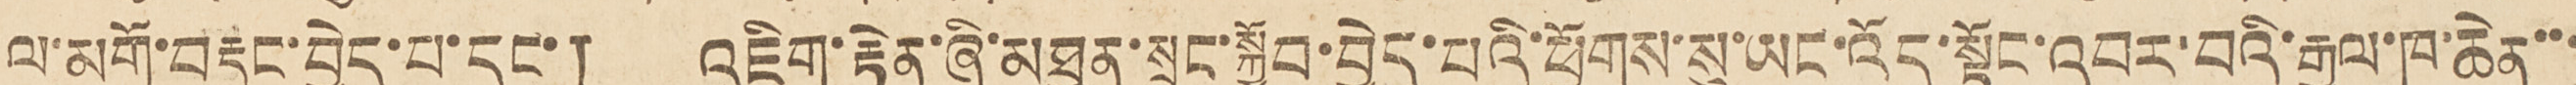ལ་མགོ་བརྡུང་བྱེད་པ་དང་། འཇིག་རྟེན་ཞི་མཐུན་སྲུང་སྐྱོབ་བྱེད་པའི་ཕྱོགས་སུ་ཡང་འོད་སྟོང་འབར་བའི་རྒྱལ་ཁ་ཆེན་་་
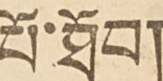པོ་ཐོབ།
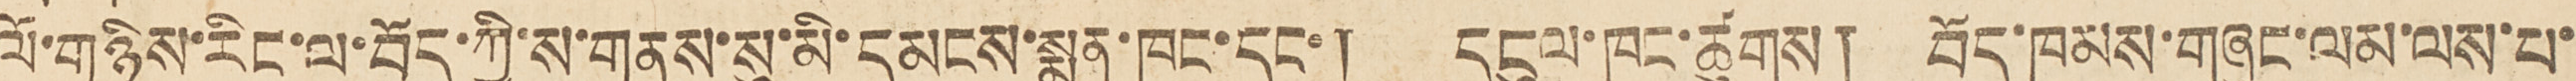ལོ་གཉིས་རིང་ལ་བོད་ཀྱི་ས་གནས་སུ་མི་དམངས་སྨན་ཁང་དང་། དངུལ་ཁང་ཚུགས། བོད་ཁམས་གཞུང་ལམ་ལས་པ་
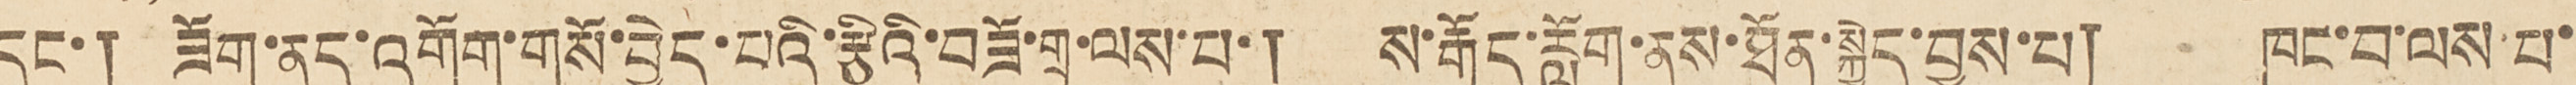དང་། ཟོག་ནད་འགོག་གསོ་བྱེད་པའི་རྩིའི་བཟོ་གྲྭ་ལས་པ་། ས་རྒོད་རློག་ནས་ཐོན་སྐྱེད་བྱས་པ། ཁང་བ་ལས་པ་
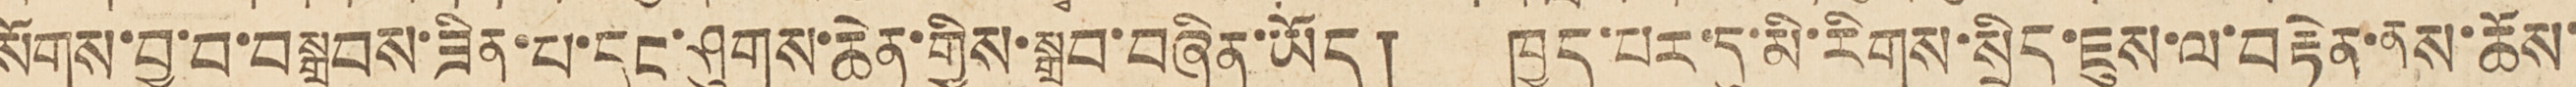སོགས་བྱ་བ་བསྒྲུབས་ཟིན་པ་དང་ཤུགས་ཆེན་གྱིས་སྒྲུབ་བཞིན་ཡོད། ཁྱད་པར་དུ་མི་རིགས་སྲིད་ཇུས་ལ་བརྟེན་ནས་ཆོས་
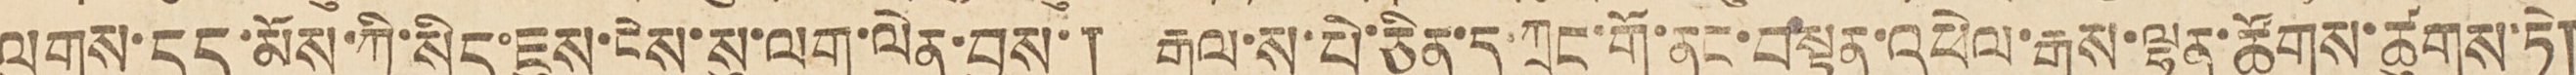ལུགས་དད་མོས་ཀྱི་སྲིད་ཇུས་ངེས་སུ་ལག་ལེན་བྱས་། རྒྱལ་ས་པེ་ཅིན་དུ་ཀྲུང་གོ་ནང་བསྟན་འཕེལ་རྒྱས་ལྷན་ཚོགས་ཚུགས་ཏེ།
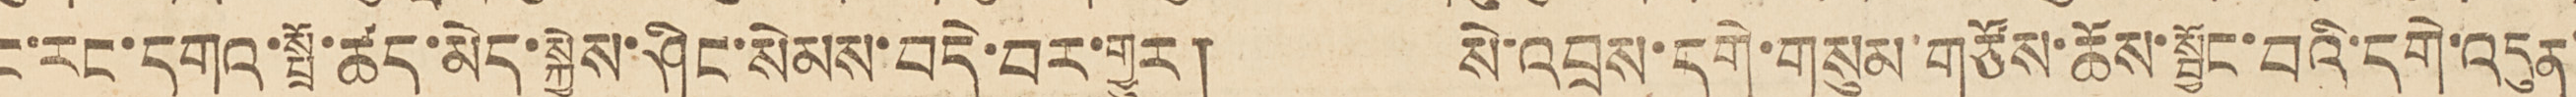ང་རང་དགའ་སྤྲོ་ཚད་མེད་སྐྱེས་ཤིང་སེམས་བདེ་བར་གྱུར། སེ་འབྲས་དགེ་གསུམ་གཙོས་ཆོས་སྦྱོང་བའི་དགེ་འདུན་
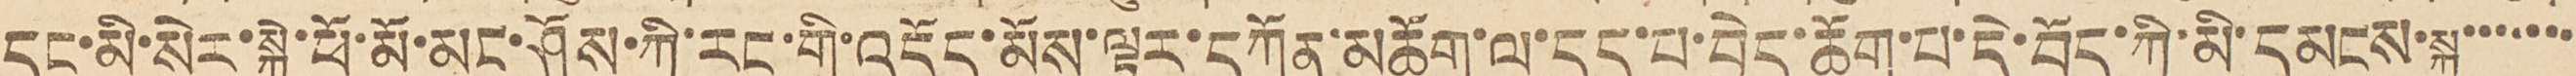དང་མི་སེར་སྐྱེ་ཕོ་མོ་མང་ཤོས་ཀྱི་རང་གི་འདོད་མོས་ལྟར་དཀོན་མཆོག་ལ་དད་པ་བྱེད་ཆོག་པ་དེ་བོད་ཀྱི་མི་དམངས་སྐྱ་་་་་་་
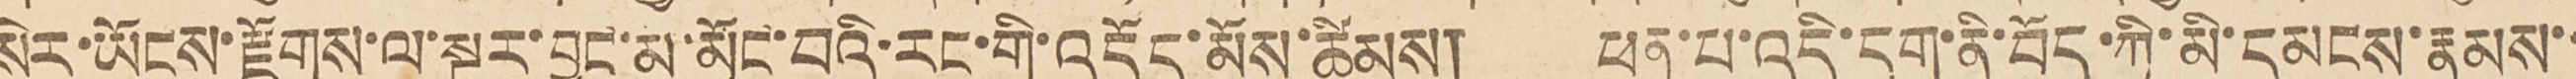སེར་ཡོངས་རྫོགས་ལ་སྔར་བྱུང་མ་མྱོང་བའི་རང་གི་འདོད་མོས་ཚིམས། ཕན་པ་འདི་དག་ནི་བོད་ཀྱི་མི་དམངས་རྣམས་་
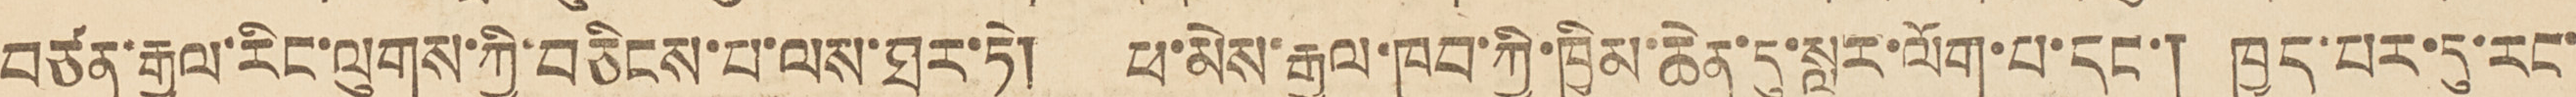བཙན་རྒྱལ་རིང་ལུགས་ཀྱི་བཅིངས་པ་ལས་ཐར་ཏེ། ཕ་མེས་རྒྱལ་ཁབ་ཀྱི་ཁྱིམ་ཆེན་དུ་སླར་ལོག་པ་དང་། ཁྱད་པར་དུ་རང་
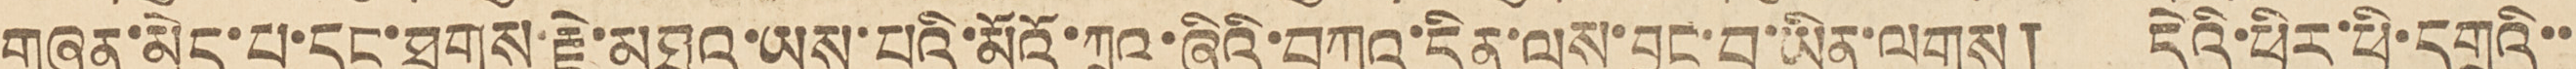གཞན་མེད་པ་དང་ཐུགས་རྗེ་མཐའ་ཡས་པའི་མོའོ་ཀྲུའུ་ཞིའི་བཀའ་དྲིན་ལས་བྱུང་བ་ཡིན་ལགས། དེའི་ཕྱི་ཕྱི་དགྲའི་་
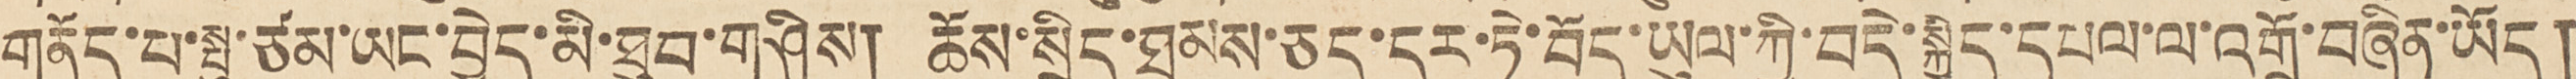གནོད་པ་སྤུ་ཙམ་ཡང་བྱེད་མི་ཐུབ་གཤིས། ཆོས་སྲིད་ཐམས་ཅད་དར་ཏེ་བོད་ཡུལ་ཀྱི་བདེ་སྐྱིད་དཔལ་ལ་འགྲོ་བཞིན་ཡོད།
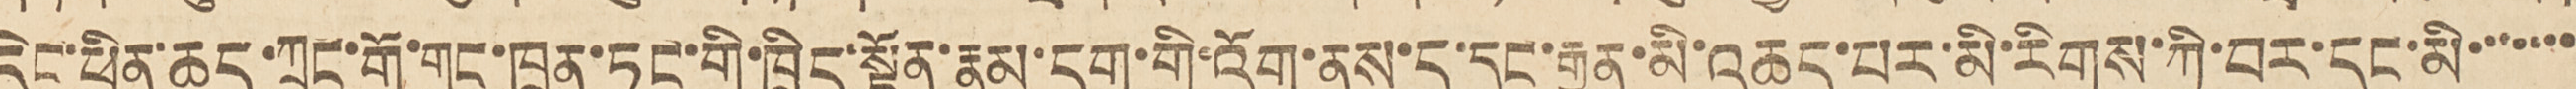དེང་ཕྱིན་ཆད་ཀྲུང་གོ་གུང་ཁྲན་ཏང་གི་ཁྲིད་སྟོན་རྣམ་དག་གི་འོག་ནས་ད་དུང་རྒྱུན་མི་འཆད་པར་མི་རིགས་ཀྱི་བར་དང་མི་་་་་་་
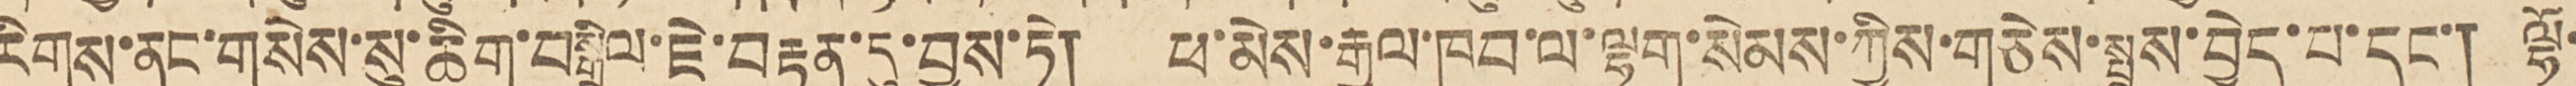རིགས་ནང་གསེས་སུ་ཆིག་བསྒྲིལ་ཇེ་བརྟན་དུ་བྱས་ཏེ། ཕ་མེས་རྒྱལ་ཁབ་ལ་ལྷག་སེམས་ཀྱིས་གཅེས་སྤྲས་བྱེད་པ་དང་། ལྷོ་
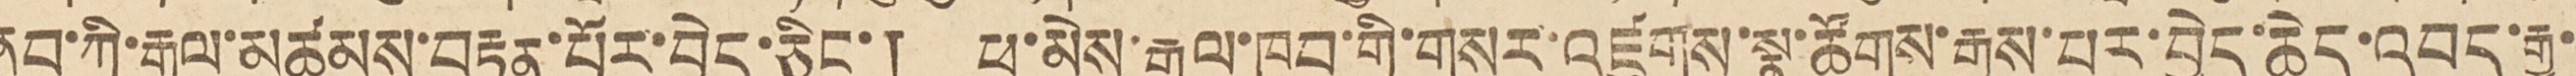ནུབ་ཀྱི་རྒྱལ་མཚམས་བརྟན་པོར་བྱེད་ཅིང་། ཕ་མེས་རྒྱལ་ཁབ་གྱི་གསར་འཛུགས་སྣ་ཚོགས་རྒྱས་པར་བྱེད་ཆེད་འབད་རྒྱུ་
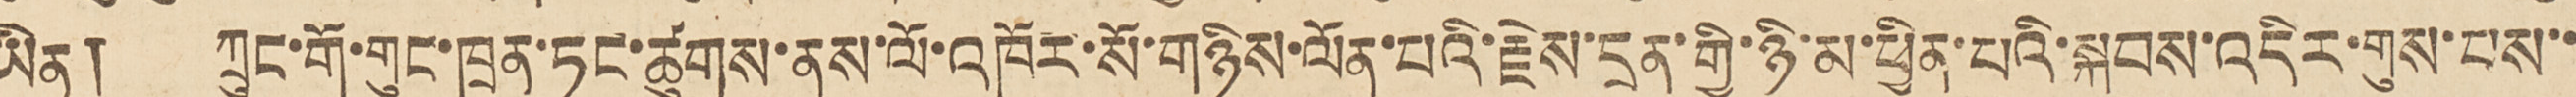ཡིན། ཀྲུང་གོ་གུང་ཁྲན་ཏང་ཚུགས་ནས་ལོ་འཁོར་སོ་གཉིས་ལོན་པའི་རྗེས་དྲན་གྱི་ཉི་མ་ཕྱིན་པའི་སྐབས་འདིར་གུས་པས་་
